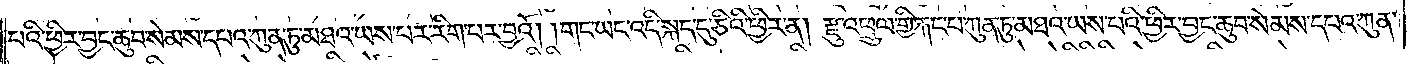པའི་ཕྱིར་བྱང་ཆུབ་སེམས་དཔའ་ཀུན་ཏུ་མཐའ་ཡས་པར་རིག་པར་བྱའོ། །གང་ཡང་འདི་སྐད་དུ་ཅིའི་ཕྱིར་ན། རྫུ་འཕྲུལ་གྱི་རྐང་པ་ཀུན་ཏུ་མཐའ་ཡས་པའི་ཕྱིར་བྱང་ཆུབ་སེམས་དཔའ་ཀུན་
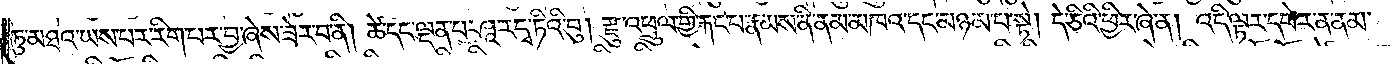ཏུ་མཐའ་ཡས་པར་རིག་པར་བྱ་ཞེས་ཟེར་བ་ནི། ཚེ་དང་ལྡན་པ་ཤཱ་ར་དྭ་ཏིའི་བུ། རྫུ་འཕྲུལ་གྱི་རྐང་པ་རྣམས་ནི་ནམ་མཁའ་དང་མཉམ་པ་སྟེ། དེ་ཅིའི་ཕྱིར་ཞེ་ན། འདི་ལྟར་དཔེར་ན་ནམ་
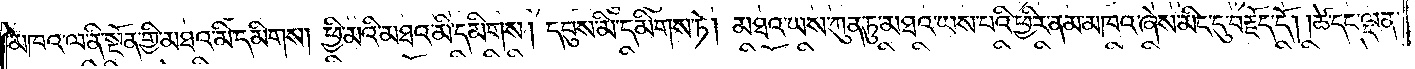མཁའ་ལ་ནི་སྔོན་གྱི་མཐའ་མི་དམིགས། ཕྱི་མའི་མཐའ་མི་དམིགས། དབུས་མི་དམིགས་ཏེ། མཐའ་ཡས་ཀུན་ཏུ་མཐའ་ཡས་པའི་ཕྱིར་ནམ་མཁའ་ཞེས་མིང་དུ་བརྗོད་དོ། །ཚེ་དང་ལྡན་
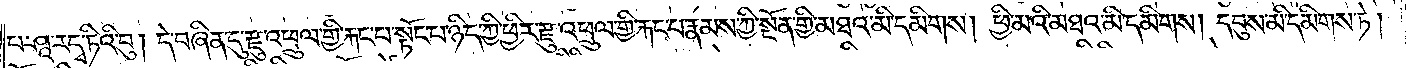པ་ཤཱ་ར་དྭ་ཏིའི་བུ། དེ་བཞིན་དུ་རྫུ་འཕྲུལ་གྱི་རྐང་པ་སྟོང་པ་ཉིད་ཀྱི་ཕྱིར་རྫུ་འཕྲུལ་གྱི་རྐང་པ་རྣམས་ཀྱི་སྔོན་གྱི་མཐའ་མི་དམིགས། ཕྱི་མའི་མཐའ་མི་དམིགས། དབུས་མི་དམིགས་ཏེ།
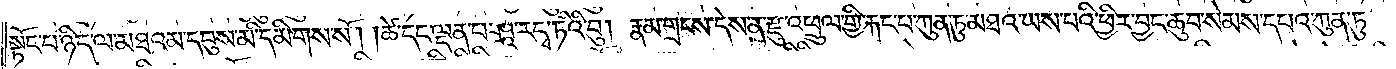སྟོང་པ་ཉིད་ལ་མཐའམ་དབུས་མི་དམིགས་སོ། །ཚེ་དང་ལྡན་པ་ཤཱ་ར་དྭ་ཏིའི་བུ། རྣམ་གྲངས་དེས་ན་རྫུ་འཕྲུལ་གྱི་རྐང་པ་ཀུན་ཏུ་མཐའ་ཡས་པའི་ཕྱིར་བྱང་ཆུབ་སེམས་དཔའ་ཀུན་ཏུ་
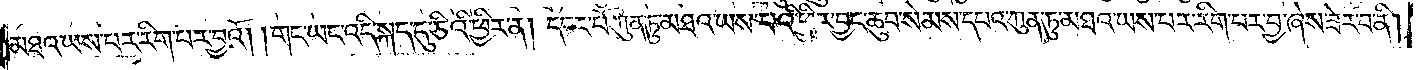མཐའ་ཡས་པར་རིག་པར་བྱའོ། །གང་ཡང་འདི་སྐད་དུ་ཅིའི་ཕྱིར་ན། དབང་པོ་ཀུན་ཏུ་མཐའ་ཡས་པའི་ཕྱིར་བྱང་ཆུབ་སེམས་དཔའ་ཀུན་ཏུ་མཐའ་ཡས་པར་རིག་པར་བྱ་ཞེས་ཟེར་བ་ནི།
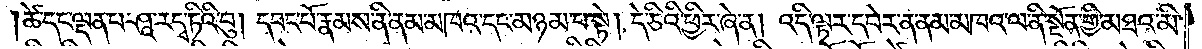ཚེ་དང་ལྡན་པར་ཤཱ་ར་དྭ་ཏིའི་བུ། དབང་པོ་རྣམས་ནི་ནམ་མཁའ་དང་མཉམ་པ་སྟེ། དེ་ཅིའི་ཕྱིར་ཞེ་ན། འདི་ལྟར་དཔེར་ན་ནམ་མཁའ་ལ་ནི་སྔོན་གྱི་མཐའ་མི་
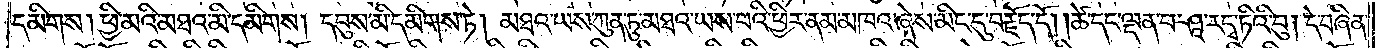དམིགས། ཕྱི་མའི་མཐའ་མི་དམིགས། དབུས་མི་དམིགས་ཏེ། མཐའ་ཡས་ཀུན་ཏུ་མཐའ་ཡས་པའི་ཕྱིར་ནམ་མཁའ་ཞེས་མིང་དུ་བརྗོད་དོ། །ཚེ་དང་ལྡན་པ་ཤཱ་ར་དྭ་ཏིའི་བུ། དེ་བཞིན་
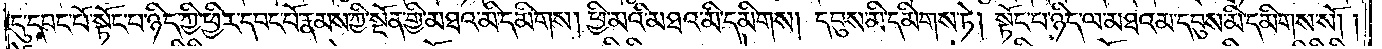དུ་དབང་པོ་སྟོང་པ་ཉིད་ཀྱི་ཕྱིར། དབང་པོ་རྣམས་ཀྱི་སྔོན་གྱི་མཐའ་མི་དམིགས། ཕྱི་མའི་མཐའ་མི་དམིགས། དབུས་མི་དམིགས་ཏེ། སྟོང་པ་ཉིད་ལ་མཐའམ་དབུས་མི་དམིགས་སོ༎
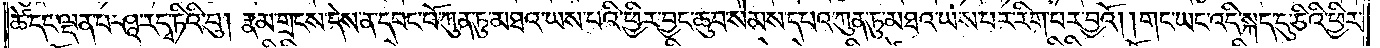ཚེ་དང་ལྡན་པ་ཤཱ་ར་དྭ་ཏིའི་བུ། རྣམ་གྲངས་དེས་ན་དབང་པོ་ཀུན་ཏུ་མཐའ་ཡས་པའི་ཕྱིར་བྱང་ཆུབ་སེམས་དཔའ་ཀུན་ཏུ་མཐའ་ཡས་པར་རིག་པར་བྱའོ། །གང་ཡང་འདི་སྐད་དུ་ཅིའི་ཕྱིར་
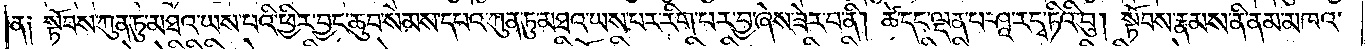ན། སྟོབས་ཀུན་ཏུ་མཐའ་ཡས་པའི་ཕྱིར་བྱང་ཆུབ་སེམས་དཔའ་ཀུན་ཏུ་མཐའ་ཡས་པར་རིག་པར་བྱ་ཞེས་ཟེར་བ་ནི། ཚེ་དང་ལྡན་པ་ཤཱ་ར་དྭ་ཏིའི་བུ། སྟོབས་རྣམས་ནི་ནམ་མཁའ་
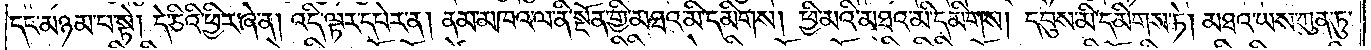དང་མཉམ་པ་སྟེ། དེ་ཅིའི་ཕྱིར་ཞེ་ན། འདི་ལྟར་དཔེར་ན། ནམ་མཁའ་ལ་ནི་སྔོན་གྱི་མཐའ་མི་དམིགས། ཕྱི་མའི་མཐའ་མི་དམིགས། དབུས་མི་དམིགས་ཏེ། མཐའ་ཡས་ཀུན་ཏུ་
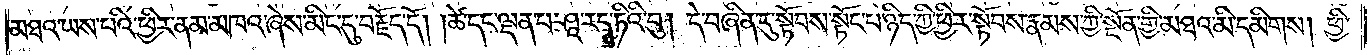མཐའ་ཡས་པའི་ཕྱིར་ནམ་མཁའ་ཞེས་མིང་དུ་བརྗོད་དོ། །ཚེ་དང་ལྡན་པ་ཤཱ་ར་དྭ་ཏིའི་བུ། དེ་བཞིན་དུ་སྟོབས་སྟོང་པ་ཉིད་ཀྱི་ཕྱིར་སྟོབས་རྣམས་ཀྱི་སྔོན་གྱི་མཐའ་མི་དམིགས། ཕྱི་
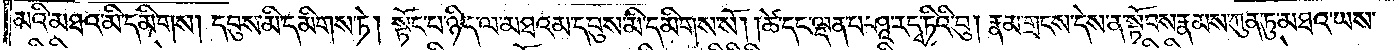མའི་མཐའ་མི་དམིགས། དབུས་མི་དམིགས་ཏེ། སྟོང་པ་ཉིད་ལ་མཐའམ་དབུས་མི་དམིགས་སོ། །ཚེ་དང་ལྡན་པ་ཤཱ་ར་དྭ་ཏིའི་བུ། རྣམ་གྲངས་དེས་ན་སྟོབས་རྣམས་ཀུན་ཏུ་མཐའ་ཡས་
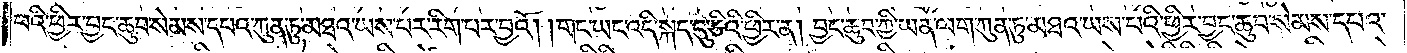པའི་ཕྱིར་བྱང་ཆུབ་སེམས་དཔའ་ཀུན་ཏུ་མཐའ་ཡས་པར་རིག་པར་བྱའོ། །གང་ཡང་འདི་སྐད་དུ་ཅིའི་ཕྱིར་ན། བྱང་ཆུབ་ཀྱི་ཡན་ལག་ཀུན་ཏུ་མཐའ་ཡས་པའི་ཕྱིར་བྱང་ཆུབ་སེམས་དཔའ་
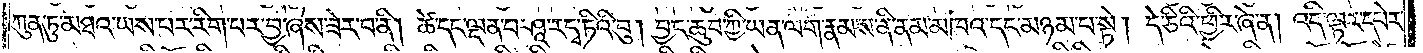ཀུན་ཏུ་མཐའ་ཡས་པར་རིག་པར་བྱ་ཞེས་ཟེར་བ་ནི། ཚེ་དང་ལྡན་པ་ཤཱ་ར་དྭ་ཏིའི་བུ། བྱང་ཆུབ་ཀྱི་ཡན་ལག་རྣམས་ནི་ནམ་མཁའ་དང་མཉམ་པ་སྟེ། དེ་ཅིའི་ཕྱིར་ཞེ་ན། འདི་ལྟར་དཔེར་
